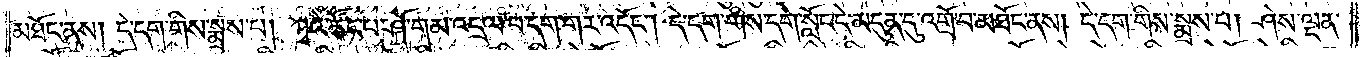མཐོང་ནས། དེ་དག་གིས་སྨྲས་པ། ཀྭའེ་ཚོང་པ་ཤོ་གམ་འདྲལ་བདག་གར་འདོང༌། དེ་དག་གིས་དགེ་སློང་དེ་མདུན་དུ་འགྲོ་བ་མཐོང་ནས། དེ་དག་གིས་སྨྲས་པ། ཤེས་ལྡན་
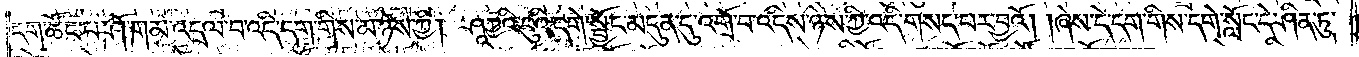དག་ཚོང་པ་ཤོ་གམ་འདྲལ་བ་འདི་དག་གིས་མ་ཉེས་ཀྱི། ཤཱཀྱའི་བུའི་དགེ་སྦྱོང་མདུན་དུ་འགྲོ་བ་འདིས་ཉེས་ཀྱི་འདི་གསད་པར་བྱའོ། །ཞེས་དེ་དག་གིས་དགེ་སློང་དེ་ཤིན་ཏུ་
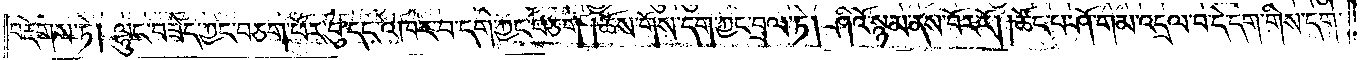བརྡེགས་ཏེ། ལྷུང་བཟེད་ཀྱང་བཅག་ཕོར་བུ་དང་འཁར་བ་དག་ཀྱང་བཅག །ཆོས་གོས་དག་ཀྱང་བྲལ་ཏེ། ཤིའོ་སྙམ་ནས་བོར་རོ། །ཚོང་པ་ཤོ་གམ་འདྲལ་བ་དེ་དག་གིས་དགེ་
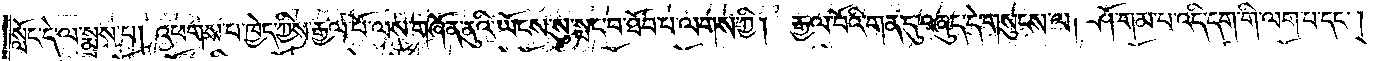སློང་དེ་ལ་སྨྲས་པ། འཕགས་པ་ཁྱེད་ཀྱིས་རྒྱལ་པོ་ལས་གཞོན་ནུའི་ཡོངས་སུ་སྤང་བ་ཐོབ་པ་ལགས་ཀྱི། རྒྱལ་པོའི་གན་དུ་བཞུད་དེ་གསུངས་ལ། ཤོ་གམ་པ་འདི་དག་གི་ལག་པ་དང༌།
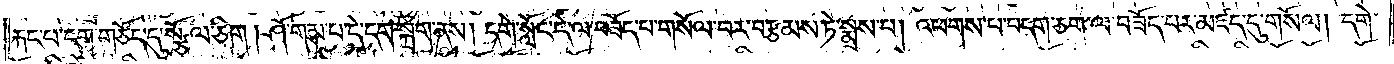རྐང་པ་དག་གཅོད་དུ་སྩོལ་ཅིག །ཤོ་གམ་པ་དེ་དག་སྐྲག་ནས། དགེ་སློང་དེ་ལ་བཟོད་པ་གསོལ་བར་བརྩམས་ཏེ་སྨྲས་པ། འཕགས་པ་བདག་ཅག་ལ་བཟོད་པར་མཛད་དུ་གསོལ། དགེ་
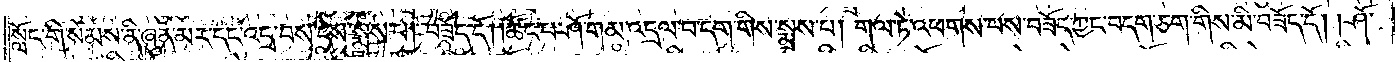སློང་གི་སེམས་ནི་ཞུན་མར་དང་འདྲ་བས་དེས་སྨྲས་པ། བཟོད་དོ། །ཚོང་པ་ཤོ་གམ་འདྲལ་བ་དག་གིས་སྨྲས་པ། གལ་ཏེ་འཕགས་པས་བཟོད་ཀྱང་བདག་ཅག་གིས་མི་བཟོད་དོ། །ཤོ་
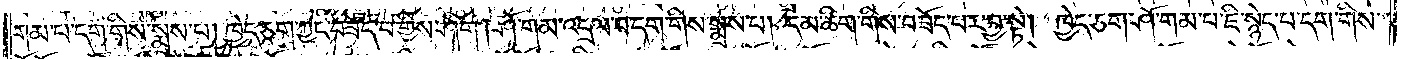གམ་པ་དག་གིས་སྨྲས་པ། ཁྱེད་ཅག་ཀྱང་བཟོད་པ་གྱིས་ཤིག །ཤོ་གམ་འདྲལ་བ་དག་གིས་སྨྲས་པ། དམ་ཚིག་གིས་བཟོད་པར་བྱ་སྟེ། ཁྱེད་ཅག་ཤོ་གམ་པ་ཇི་སྙེད་པ་དག་གིས་
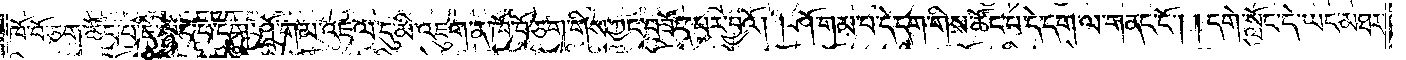ཁོ་བོ་ཅག་ཚོང་པ་ཇི་སྙེད་པ་དག་ཤོ་གམ་འཇལ་དུ་མི་འཇུག་ན་ཁོ་བོ་ཅག་གིས་ཀྱང་བཟོད་པར་བྱའོ། །ཤོ་གམ་པ་དེ་དག་གིས་ཚོང་པ་དེ་དག་ལ་གནང་ངོ༌། །དགེ་སློང་དེ་ཡང་མཐར་
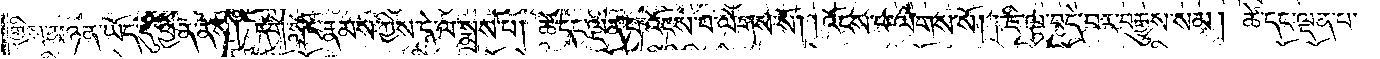གྱིས་མཉན་ཡོད་དུ་ཕྱིན་ནས། དགེ་སློང་རྣམས་ཀྱིས་དེ་ལ་སྨྲས་པ། ཚེ་དང་ལྡན་པ་འོངས་པ་ལེགས་སོ། །འོངས་པ་ལེགས་སོ། །ཇི་ལྟ་བདེ་བར་བརྒྱུས་སམ། ཚེ་དང་ལྡན་པ་
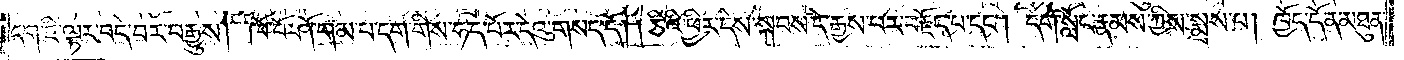དག་ཇི་ལྟར་བདེ་བར་བརྒྱུས། ཁོ་བོ་ཤོ་གམ་པ་དག་གིས་ཧད་པོར་དེའུ་གསད་དོ། །ཅིའི་ཕྱིར་དེས་སྐབས་དེ་རྒྱས་པར་བརྗོད་པ་དང༌། དགེ་སློང་རྣམས་ཀྱིས་སྨྲས་པ། ཁྱོད་དོན་མཐུན་
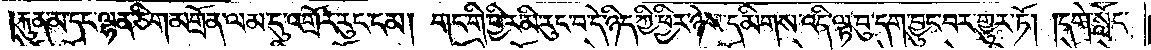རྐུན་མ་དང་ལྷན་ཅིག་མགྲོན་ལམ་དུ་འགྲོར་རུང་ངམ། གང་གི་ཕྱིར་མི་རུང་བ་དེ་ཉིད་ཀྱི་ཕྱིར་ཉེས་དམིགས་འདི་ལྟ་བུ་དག་བྱུང་བར་གྱུར་ཏོ། །དགེ་སློང་
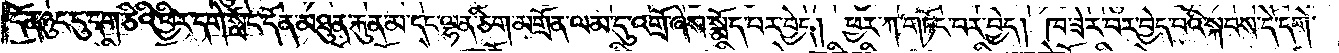དོན་ཉུང་དུ་དག་ཅིའི་ཕྱིར་དགེ་སློང་དོན་མཐུན་རྐུན་མ་དང་ལྷན་ཅིག་མགྲོན་ལམ་དུ་འགྲོ་ཞེས་སྨོད་པར་བྱེད། ཕྱར་ཀ་གཏོང་བར་བྱེད། ཁ་ཟེར་བར་བྱེད་པའི་སྐབས་དེ་དགེ་
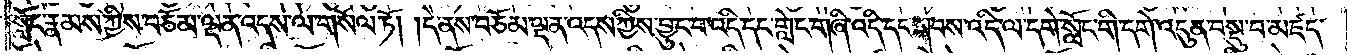སློང་རྣམས་ཀྱིས་བཅོམ་ལྡན་འདས་ལ་གསོལ་ཏོ། །དེ་ནས་བཅོམ་ལྡན་འདས་ཀྱིས་བྱུང་བ་འདི་དང་གླེང་གཞི་འདི་དང་སྐབས་འདི་ལ་དགེ་སློང་གི་དགེ་འདུན་བསྡུ་བ་མཛད་
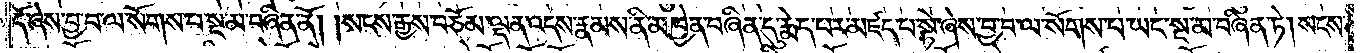དོ་ཞེས་བྱ་བ་ལ་སོགས་པ་སྔ་མ་བཞིན་ནོ། །སངས་རྒྱས་བཅོམ་ལྡན་འདས་རྣམས་ནི་མཁྱེན་བཞིན་དུ་རྨེད་པར་མཛད་པ་སྟེ་ཞེས་བྱ་བ་ལ་སོགས་པ་ཡང་སྔ་མ་བཞིན་ཏེ། སངས་
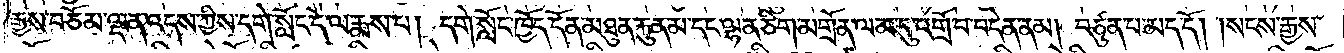རྒྱས་བཅོམ་ལྡན་འདས་ཀྱིས་དགེ་སློང་དེ་ལ་རྨས་པ། དགེ་སློང་ཁྱོད་དོན་མཐུན་རྐུན་མ་དང་ལྷན་ཅིག་མགྲོན་ལམ་དུ་འགྲོ་བ་བདེན་ནམ། བཙུན་པ་མད་དོ། །སངས་རྒྱས་
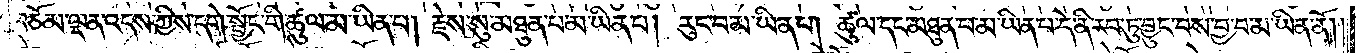བཅོམ་ལྡན་འདས་ཀྱིས་དགེ་སྦྱོང་གི་ཚུལ་མ་ཡིན་པ། རྗེས་སུ་མཐུན་པ་མ་ཡིན་པ། རུང་བ་མ་ཡིན་པ། ཚུལ་དང་མཐུན་པ་མ་ཡིན་པ་དེ་ནི་རབ་ཏུ་བྱུང་བས་བྱ་བ་མ་ཡིན་ནོ། །
